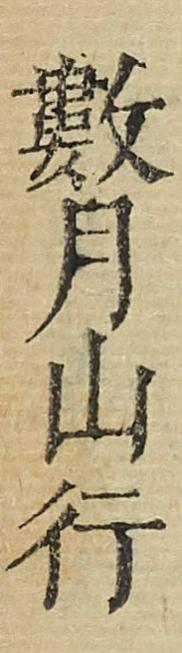數月山行
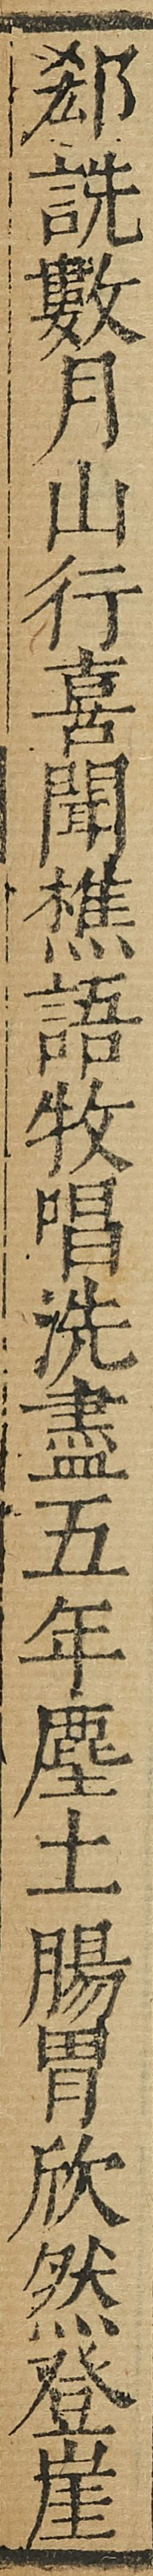郄詵數月山行喜聞樵語牧唱洗盡五年塵土腸胃欣然登崖
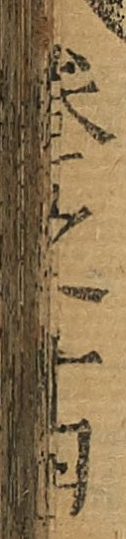卷之十四
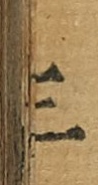三
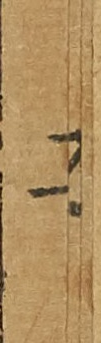二
